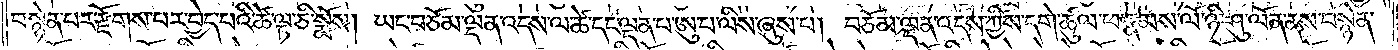བསྙེན་པར་རྫོགས་པར་བྱེད་པའི་ཚེ་ལྟ་ཅི་སྨོས། ཡང་བཅོམ་ལྡན་འདས་ལ་ཚེ་དང་ལྡན་པ་ཨུ་པ་ལིས་ཞུས་པ། བཅོམ་ལྡན་འདས་ཀྱིས་དགེ་ཚུལ་ཕ་རྣམས་ལོ་ཉི་ཤུ་ལོན་ནས་བསྙེན་
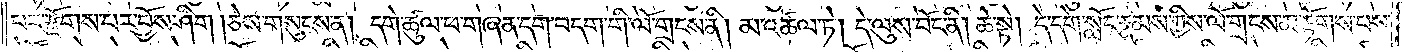པར་རྫོགས་པར་བྱོས་ཤིག །ཅེས་གསུངས་ན། དགེ་ཚུལ་ཕ་གཞན་དག་བདག་གི་ལོ་གྲངས་ནི། མ་འཚལ་ཏེ། དེ་ལུས་བོང་ནི། ཆེ་སྟེ། དེ་དགེ་སློང་རྣམས་ཀྱིས་ལོ་གྲངས་མ་རྟོགས་པས་
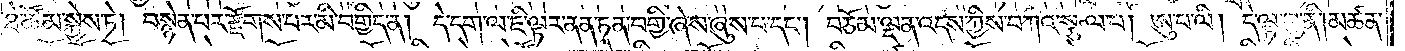ཐེ་ཚོམ་སྐྱེས་ཏེ། བསྙེན་པར་རྫོགས་པར་མི་བགྱིད་ན། དེ་དག་ལ་ཇི་ལྟར་ནན་ཏན་བགྱི་ཞེས་ཞུས་པ་དང༌། བཅོམ་ལྡན་འདས་ཀྱིས་བཀའ་སྩལ་པ། ཨུ་པ་ལི། དེ་ལྟ་བུ་ནི། མཚན་
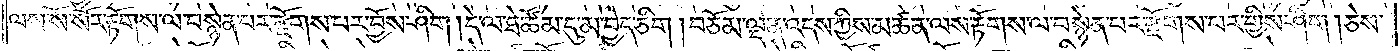ལས་སོ་སོར་རྟོགས་ལ་བསྙེན་པར་རྫོགས་པར་བྱོས་ཤིག །དེ་ལ་ཐེ་ཚོམ་དུ་མ་བྱེད་ཅིག། བཅོམ་ལྡན་འདས་ཀྱིས་མཚན་ལས་རྟོགས་ལ་བསྙེན་པར་རྫོགས་པར་གྱིས་ཤིག །ཅེས་
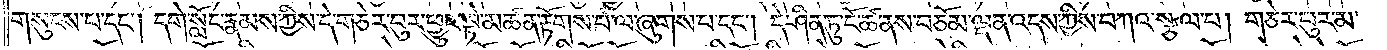གསུངས་པ་དང༌། དགེ་སློང་རྣམས་ཀྱིས་དེ་གཅེར་བུར་ཕྱུང་སྟེ་མཚན་རྟོགས་པ་ལ་ཞུགས་པ་དང༌། དེ་ཤིན་ཏུ་ངོ་ཚ་ནས་བཅོམ་ལྡན་འདས་ཀྱིས་བཀའ་སྩལ་པ། གཅེར་བུར་མ་
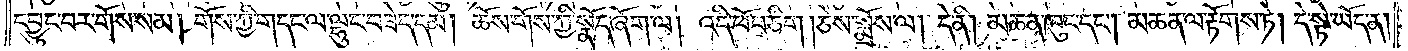དབྱུང་བར་གོས་སམ། གོས་ཀྱི་གདང་ལ་ལྷུང་བཟེད་དམ། ཆོས་གོས་ཀྱི་སྣོད་ཞོག་ལ། འདི་ཕོབ་ཅིག །ཅེས་སྨྲོས་ལ། དེ་ནི། མཆན་ཁུང་དང༌། མཆན་ལ་རྟོགས་ཏེ། དེ་སྟེ་ཡོད་ན།
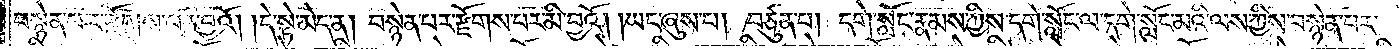བསྙེན་པར་རྫོགས་པར་བྱའོ། །དེ་སྟེ་མེད་ན། བསྙེན་པར་རྫོགས་པར་མི་བྱའོ། །ཡང་ཞུས་པ། བཙུན་པ། དགེ་སློང་རྣམས་ཀྱིས་དགེ་སློང་ལ་དགེ་སློང་མའི་ལས་ཀྱིས་བསྙེན་པར་
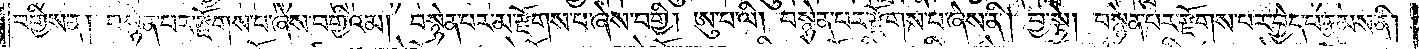བགྱིས་ན། བསྙེན་པར་རྫོགས་པ་ཞེས་བགྱིའམ། བསྙེན་པར་མ་རྫོགས་པ་ཞེས་བགྱི། ཨུ་པ་ལི། བསྙེན་པར་རྫོགས་པ་ཞེས་ནི། བྱ་སྟེ། བསྙེན་པར་རྫོགས་པར་བྱེད་པ་རྣམས་ནི།
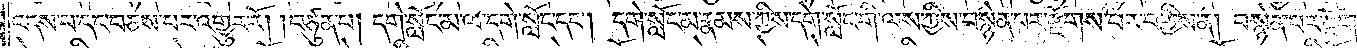འདས་པ་དང་བཅས་པར་འགྱུར་རོ། །བཙུན་པ། དགེ་སློང་མ་ལ་དགེ་སློང་དང༌། དགེ་སློང་མ་རྣམས་ཀྱིས་དགེ་སློང་གི་ལས་ཀྱིས་བསྙེན་པར་རྫོགས་པར་བགྱིས་ན། བསྙེན་པར་རྫོགས་པ་
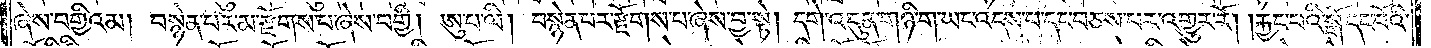ཞེས་བགྱིའམ། བསྙེན་པར་མ་རྫོགས་པ་ཞེས་བགྱི། ཨུ་པ་ལི། བསྙེན་པར་རྫོགས་པ་ཞེས་བྱ་སྟེ། དགེ་འདུན་གཉི་ག་ཡང་འདས་པ་དང་བཅས་པར་འགྱུར་རོ། །རྐྱང་པའི་སྒོ་དང་པོའི་
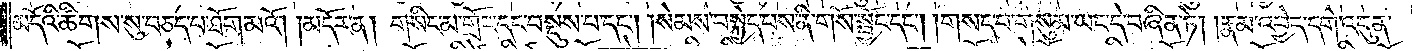མདོའི་ཚིགས་སུ་བཅད་པ་ཐོག་མའོ།    །མདོར་ན། གསིང་མ་གྲོང་དང་བསྡུས་པ་དང༌། སེམས་བསྐྱེད་པས་ནི་གསོ་སྦྱོང་དང༌། གསད་པ་གསུམ་ཡང་དེ་བཞིན་ཏེ། །རྣམ་འབྱེད་དགེ་འདུན་
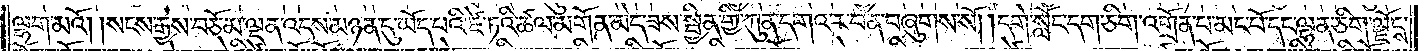ལྷག་མའོ། །སངས་རྒྱས་བཅོམ་ལྡན་འདས་མཉན་དུ་ཡོད་པའི་ཛེ་ཏའི་ཚལ་མགོན་མེད་ཟས་སྦྱིན་གྱི་ཀུན་དགའ་ར་བ་ན་བཞུགས་སོ། །དགེ་སློང་དག་ཅིག་འགྲོན་པ་མང་པོ་དང་ལྷན་ཅིག་ལྗོངས་
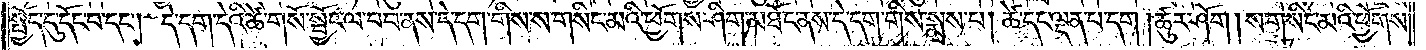སྤྱོད་དུ་དོང་བ་དང༌། དེ་དག་དེའི་ཚེ་གསོ་སྦྱོང་ལ་བབ་ནས་དེ་དག་གིས་ས་གསིང་མའི་ཕྱོགས་ཤིག་མཐོང་ནས་དེ་དག་གིས་སྨྲས་པ། ཚེ་དང་ལྡན་པ་དག །ཚུར་ཤོག །ས་གསིང་མའི་ཕྱོགས་
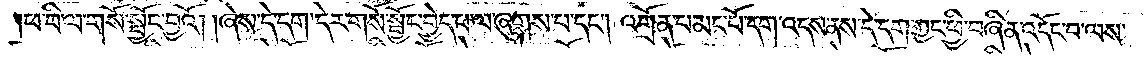ཕ་བི་ལ་གསོ་སྦྱོང་བྱའོ། །ཞེས་དེ་དག་དེར་གསོ་སྦྱོང་བྱེད་པ་ལ་ཞུགས་པ་དང༌། འགྲོན་པ་མང་པོ་དག་འདས་ནས་དེ་དག་ཀྱང་ཕྱི་བཞིན་འདོང་བ་ལས་
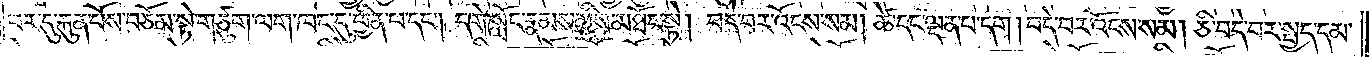བར་དུ་རྐུན་པོས་བཅོམ་སྟེ་གཙུག་ལག་ཁང་དུ་ཕྱིན་པ་དང༌། དགེ་སློང་རྣམས་ཀྱིས་མཐོང་སྟེ། བདེ་བར་འོངས་སམ། ཚེ་དང་ལྡན་པ་དག །བདེ་བར་འོངས་སམ། ཅི་བདེ་བར་སྤྱད་དམ་
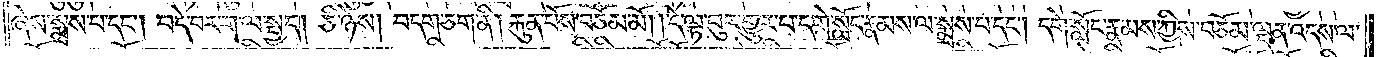ཞེས་སྨྲས་པ་དང༌། བདེ་བར་ག་ལ་སྤྱད། ཅི་ཉེས། བདག་ཅག་ནི། རྐུན་པོས་བཅོམ་མོ། །དེ་ལྟ་བུར་གྱུར་པ་དགེ་སློང་རྣམས་ལ་སྨྲས་པ་དང༌། དགེ་སློང་རྣམས་ཀྱིས་བཅོམ་ལྡན་འདས་ལ་
